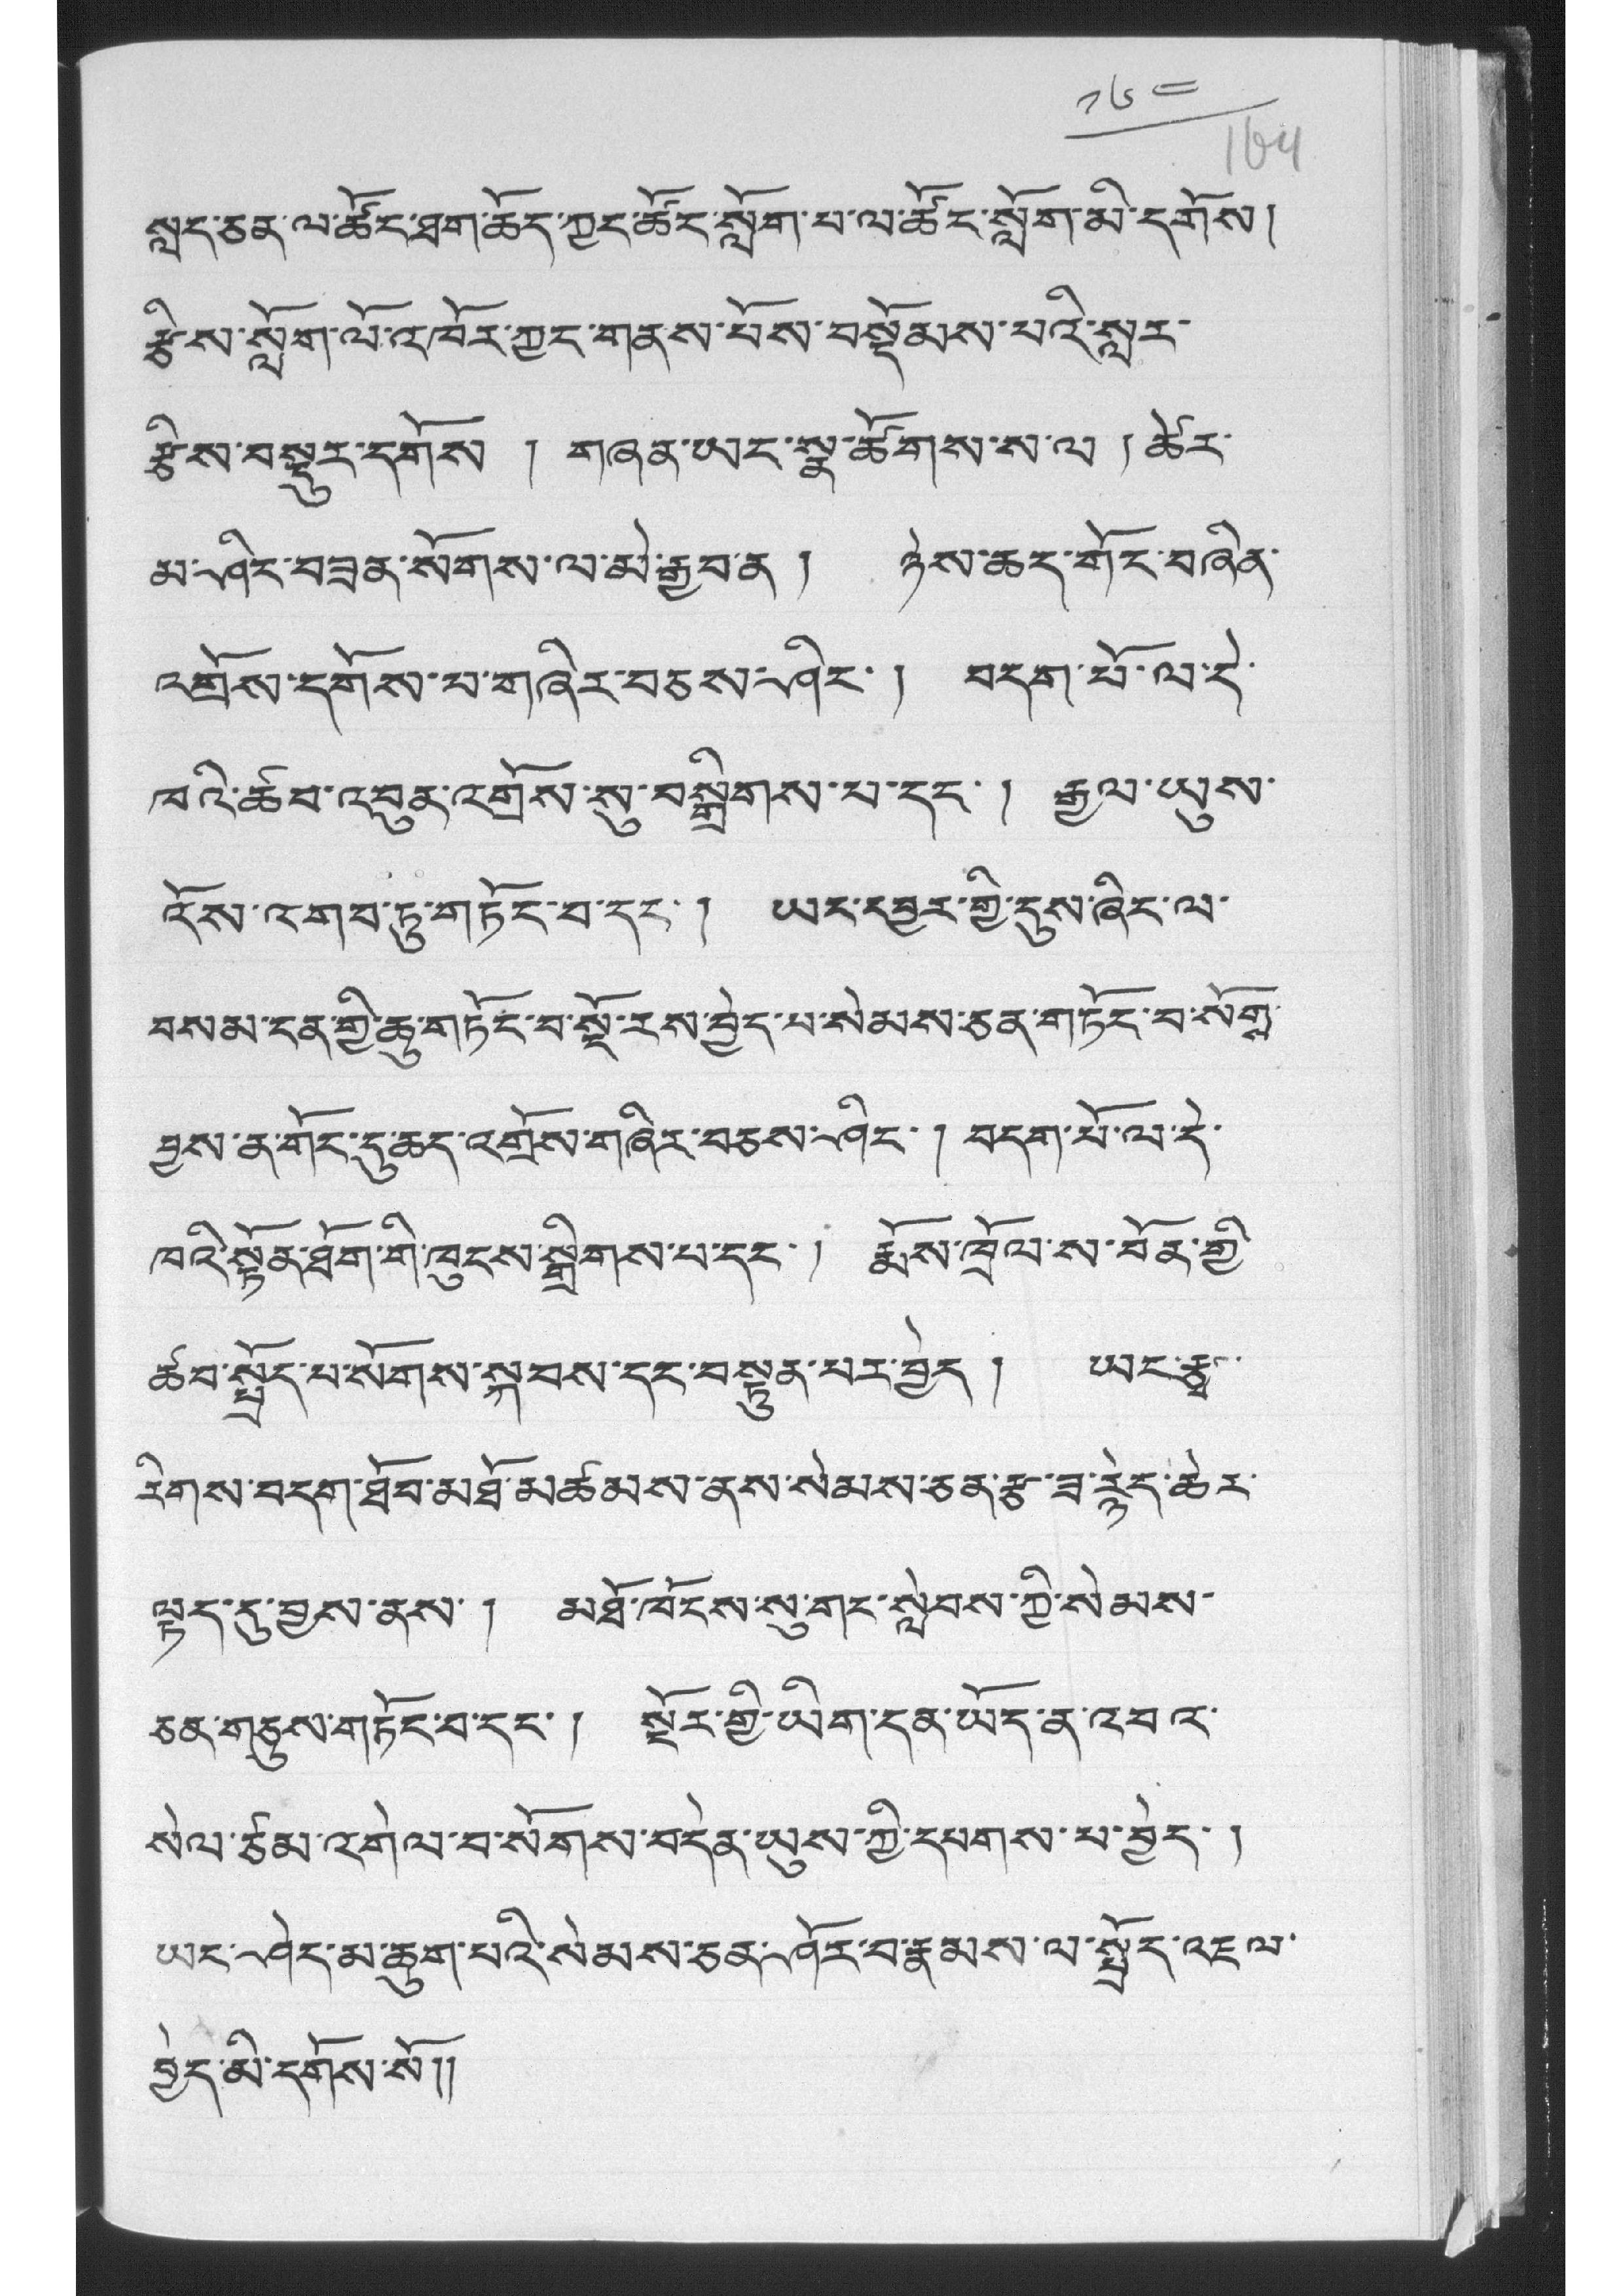༡༦༤
སླད་ཅན་ལ་ཚོང་ཐག་ཆོད་ཀྱང་ཚོང་སློག་པ་ལ་ཚོང་སློག་མི་དགོས།
རྩིས་སློག་ལོ་འཁོར་ཀྱང་གནས་པོས་བསྡོམས་པའི་སླར་
རྩིས་བསྡུར་དགོས ། གཞན་ཡང་སྣ་ཚོགས་ས་ལ ། ཚེར་
མ་ཤིང་བཟན་སོགས་ལ་མེ་རྒྱབ་ན ། ཉེས་ཆད་གོང་བཞིན་
འགྲོས་དགོས་པ་གཞིར་བཅས་ཤིང་། བདག་པོ་ལ་དེ་
ཁའི་ཚབ་འབུན་འགྲོས་སུ་བསྒྲིགས་པ་དང་ ། རྒྱལ་ཡུས་
འོས་འགབ་ཏུ་གཏོང་བ་དང་། ཡང་དབྱར་གྱི་དུས་ཞིང་ལ་
བསམ་ངན་གྱི་ཆུ་གཏོང་བ་སྡོ་རས་བྱེད་པ་སེམས་ཅན་གཏོང་བ་སོགས་
བྱས་ན་གོང་དུ་ཆད་འགྲོས་གཞིར་བཅས་ཤིང་ ། བདག་པོ་ལ་དེ་
ཁའི་སྟོན་ཐོག་གི་ཁུངས་སྒྲིགས་པ་དང་། རྨོས་ཁྲོལ་ས་བོན་གྱི་
ཚབ་སྤྲོད་པ་སོགས་སྐབས་དང་བསྟུན་པར་བྱེད། ཡང་རྩྭ་
རིགས་བདག་ཐོབ་མཐོ་མཚམས་ནས་སེམས་ཅན་རྩ་ཟ་རྙེད་ཆེར་
ལྟད་དུ་བྱས་ནས་ ། མཐོ་ཁོངས་སུ་གང་སླེབས་ཀྱི་སེམས་
ཅན་གཅུས་གཏོང་བ་དང་། སྔོར་གྱི་ཡིག་དན་ཡོད་ན་འབའ་
སེལ་ཙམ་འགེལ་བ་སོགས་བདེན་ཡུས་ཀྱི་དཔགས་པ་བྱེད་ །
ཡང་ཤེད་མ་ཆུག་པའི་སེམས་ཅན་ཤོར་བ་རྣམས་ལ་སྤྲོད་འཇལ་
བྱེད་མི་དགོས་སོ།།
